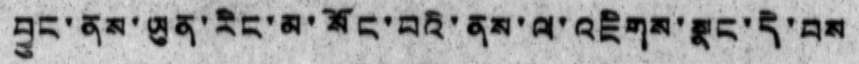བྱུང་ནས་ཡུན་རིང་མ་སོང་བའི་ནས་ལ་འཇིགས་སྣང་དེ་བས
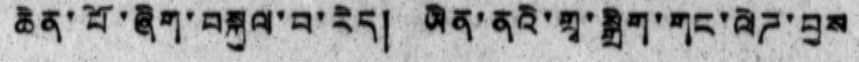ཆེན་པོ་ཞིག་བསྐྱལ་བ་རེད། ཡིན་ནའི་གྲྭ་སྒྲིག་གང་ལེཌ་བྱས
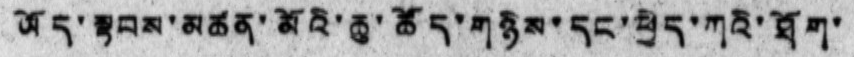ཡོད་སྟབས་མཚན་མོའི་ཆུ་ཚོད་གཉིས་དང་ཕྱེད་ཀའི་ཐོག་
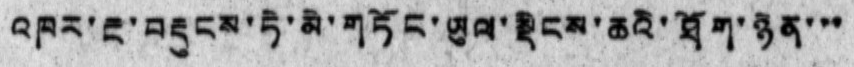འཁར་རྔ་བརྡུངས་ཏེ་མི་གཏོང་ཡུལ་སྡིངས་ཆའི་ཐོག་ཉེན་་་
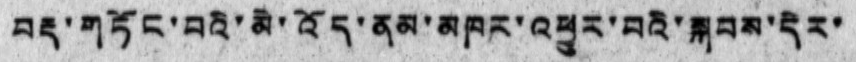བརྡ་གཏོང་བའི་མི་འོད་ནམ་མཁར་འཕྱུར་བའི་སྐབས་དེར་
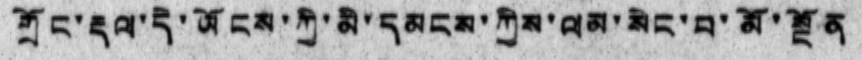གྲོང་རྡལ་དེ་ཡོངས་ཀྱི་མི་དམངས་ཀྱིས་ལམ་སེང་བ་མོ་སྔོན
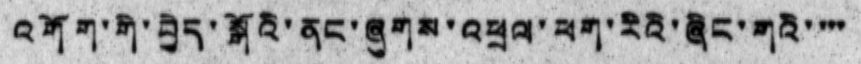འགོག་གི་བྱེད་སྒོའི་ནང་ཞུགས་འཕྲལ་ཕག་རིའི་ཞིང་གའི་་་་
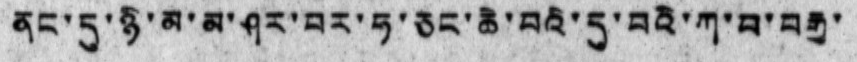ནང་དུ་ཉི་མ་མ་ཤར་བར་ཧ་ཅང་ཆི་བའི་དུ་བའི་ཀ་བ་བརྒྱ་
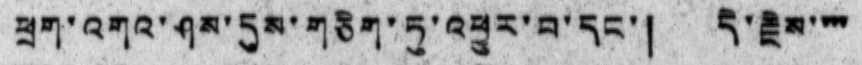ཕྲག་འགའ་ཤས་དུས་གཅིག་ཏུ་འཕྱུར་བ་དང་། དེ་རྗེས་་་་
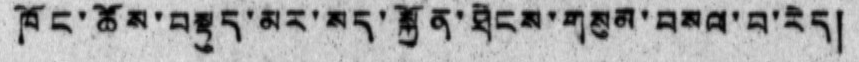ཁོང་ཚོས་བསྟུད་མར་སད་སྐྱོན་ཐེངས་གསུམ་བསལ་བ་རེད།
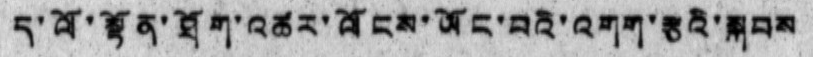ད་ལོ་སྟོན་ཐོག་འཚར་ལོངས་ཡོང་བའི་འགག་རྩའི་སྐབས
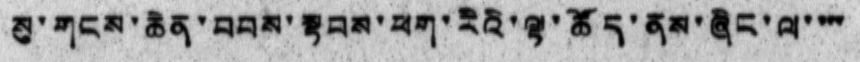སུ་གངས་ཆེན་བབས་སྟབས་ཕག་རིའི་ལྟ་ཚོད་ནས་ཞིང་ལ་་་་
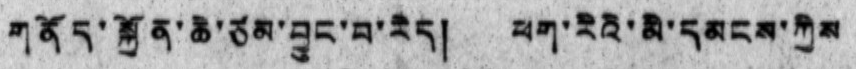གནོད་སྐྱོན་ཆེ་ཙམ་བྱུང་བ་རེད། ཕག་རིའི་མི་དམངས་ཀྱིས
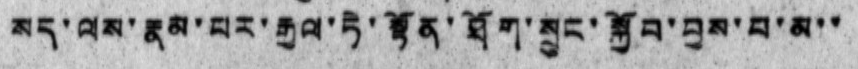སད་ལས་རྣམ་པར་རྒྱལ་ཏེ་སྟོན་ཐོག་སྲུང་སྐྱོབ་བྱས་པ་མ་་
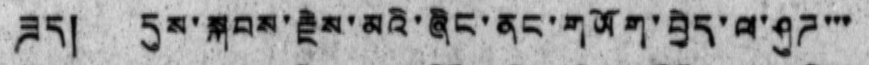ཟད། དུས་སྐབས་རྗེས་མའི་ཞིང་ནང་གཡོག་བྱེད་ལ་ཤུཌ་་་
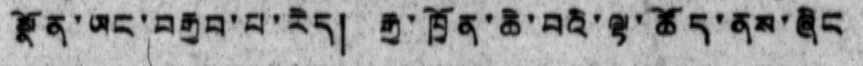སྣོན་ཡང་བརྒྱབ་པ་རེད། རྒྱ་ཁྱོན་ཆེ་བའི་ལྟ་ཚོད་ནས་ཞིང
